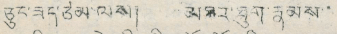ཅུང་ཟད་ཙམ་ལས། མཐབ་ཐུག་རྣམས་་
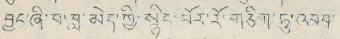བྱང་ཞི་བ་བླ་མེད་ཀྱི་སྙིང་པོར་རོ་གཅིག་ཏུ་འབབ་
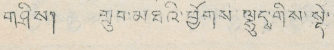གཤིས། གྲུབ་མཐའི་ཕྱོགས་ལྷུངྶ་གིས་སྡེ་
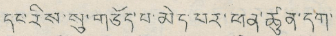དང་རིས་སུ་གཅོད་པ་མེད་པར་ཕན་ཚུན་དག་
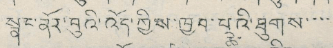སྣང་ནོར་བུའི་འོད་ཀྱིས་ཁྱབ་པའི་ཐུགས་་་་
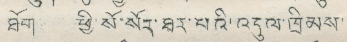ཐོག ཕྱི་སོ་སོར་ཐར་པའི་འདུལ་ཁྲིམས་
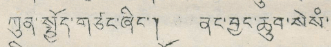ཀུན་སྤྱོད་གཙང་ཞིང་། ནང་བྱང་ཆུབ་སེསཾ་
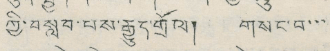ཀྱི་བསླབ་པས་རྒྱུད་གྲོལ། གསང་བ་་་
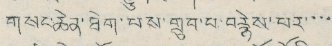གསང་ཆེན་ཐེག་པས་གྲུབ་པ་བརྙེས་པར་་་་
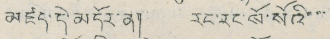མཛད་དེ་མདོར་ན། རང་རང་སོ་སོའི་་་
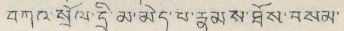བཀའ་སྲོལ་དྲི་མ་མེད་པ་རྣམས་ཐོས་བསམ་
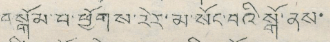བསྒོམ་པ་ཕྱོགས་རེར་མ་སོང་བའི་སྒོ་ནས་
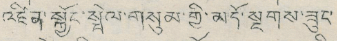འཛིན་སྐྱོང་སྦེལ་གསུམ་གྱི་མདོ་སྔགས་ཟུང་
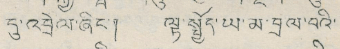དུ་འབྲེལ་ཞིང་། ལྟ་སྤྱོད་ཡ་མ་བྲལ་བའི་
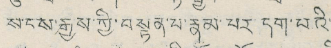སངས་རྒྱས་ཀྱི་བསྟན་པ་རྣམ་པར་དག་པའི་
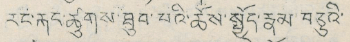རང་རྐང་ཚུགས་ཐུབ་པའི་ཆོས་སྤྱོད་རྣམ བཅུའི་
